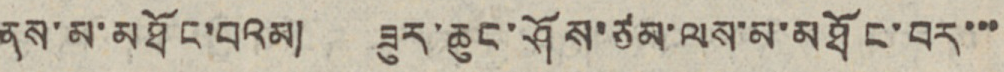ནས་མ་མཐོང་བའམ། ཟུར་ཆུང་ཤོས་ཙམ་ལས་མ་མཐོང་བར་་་
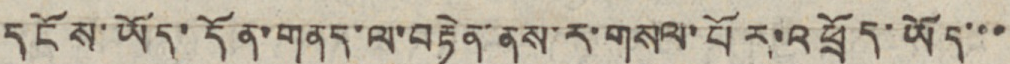དངོས་ཡོད་དོན་གནད་ལ་བརྟེན་ན་ར་གསལ་པོར་འཕྲོད་ཡོད་་་
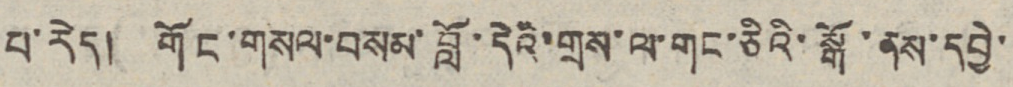པ་རེད། གོང་གསལ་བསམ་བློ་དེའི་གྲས་ལ་གང་ཅིའི་སྒོ་ནས་དབྱེ་
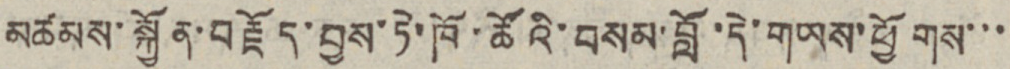མཚམས་སྐྱོན་བརྗོད་བྱས་ཏེ་ཁོ་ཚོའི་བསམ་བློ་དེ་གཡས་ཕྱོགས་་་
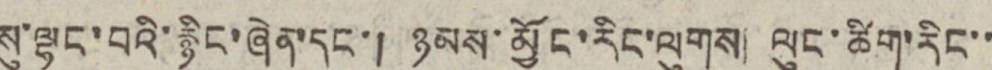སུ་ལྷུང་བའི་རྙིང་ཞེན་དང་། ཉམས་མྱོང་རིང་ལུགས། ལུང་ཚིག་རིང་་
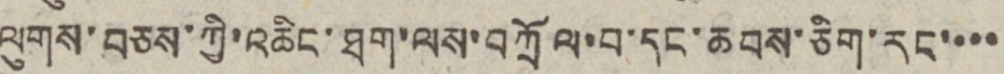ལུགས་བཅས་ཀྱི་འཆིང་ཐག་ལས་བཀྲོལ་བ་དང་ཆབས་ཅིག་རང་་་་
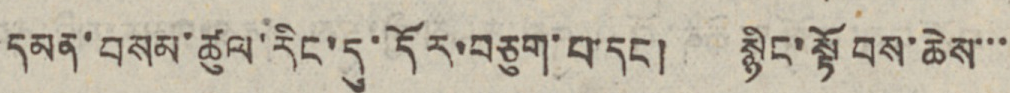དམན་བསམ་ཚུལ་རིང་དུ་དོར་བཅུག་པ་དང། སྙིང་སྟོབས་ཆེས་་་
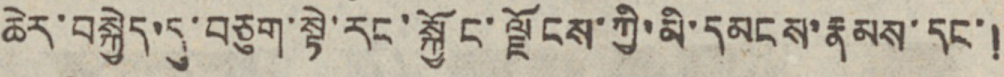ཆེར་བསྐྱེད་དུ་བཅུག་སྟེ་རང་སྐྱོང་ལྗོངས་ཀྱི་མི་དམངས་རྣམས་དང་།
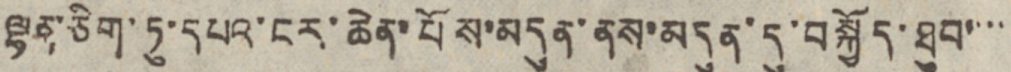ལྷན་ཅིག་ཏུ་དཔའ་ངར་ཆེན་པོས་མདུན་ནས་མདུན་དུ་བསྐྱོད་ཐུབ་་་་
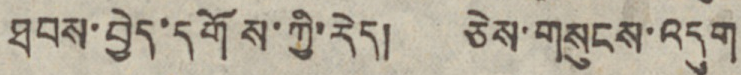ཐབས་བྱེད་དགོས་ཀྱི་རེད། ཅེས་གསུངས་འདུག
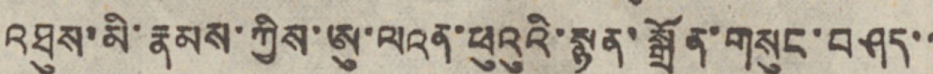འཐུས་མི་རྣམས་ཀྱིས་ཨུ་ལའན་ཕུའུའི་སྙན་སྒྲོན་གསུང་བཤད་་
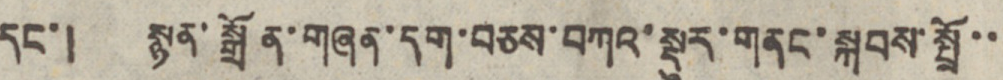དང་། སྙན་སྒྲོན་གཞན་དག་བཅས་བཀའ་སྡུར་གནང་སྐབས་སྤྲོ་་
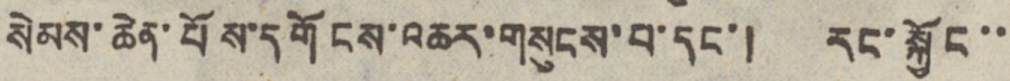སེམས་ཆེན་པོས་དགོངས་འཆར་གསུངས་བ་དང་། རང་སྐྱོང་་
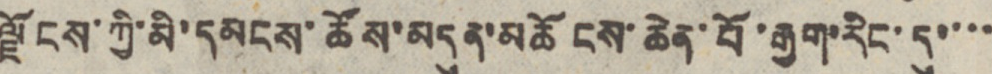ལྗོངས་ཀྱི་མི་དམངས་ཚོས་མདུན་མཆོངས་ཆེན་པོ་རྒྱག་རིང་དུ་་་་
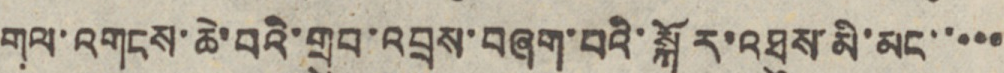གལ་འགངས་ཆེ་བའི་གྲུབ་འབྲས་བཞག་པའི་སྐོར་འཐུས་མི་མང་་་་་
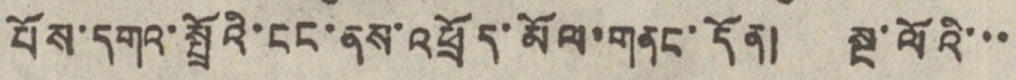པོས་དགའ་སྤྲོའི་ངང་ནས་འཕྲོད་མོལ་གནང་དོན། སྔ་ལོའི་་་
